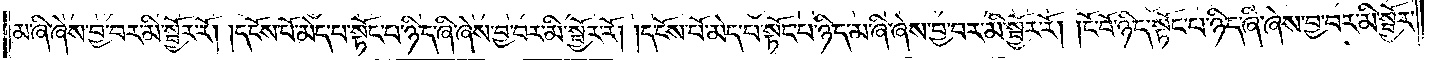མ་ཞི་ཞེས་བྱ་བར་མི་སྦྱོར་རོ། །དངོས་པོ་མེད་པ་སྟོང་པ་ཉིད་ཞི་ཞེས་བྱ་བར་མི་སྦྱོར་རོ། །དངོས་པོ་མེད་པ་སྟོང་པ་ཉིད་མ་ཞི་ཞེས་བྱ་བར་མི་སྦྱོར་རོ། །ངོ་བོ་ཉིད་སྟོང་པ་ཉིད་ཞི་ཞེས་བྱ་བར་མི་སྦྱོར་
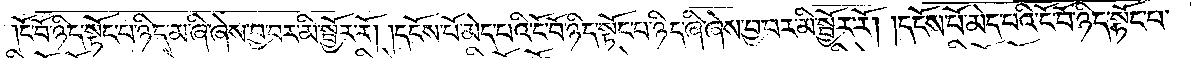ངོ་བོ་ཉིད་སྟོང་པ་ཉིད་མ་ཞི་ཞེས་བྱ་བར་མི་སྦྱོར་རོ། །དངོས་པོ་མེད་པའི་ངོ་བོ་ཉིད་སྟོང་པ་ཉིད་ཞི་ཞེས་བྱ་བར་མི་སྦྱོར་རོ། །དངོས་པོ་མེད་པའི་ངོ་བོ་ཉིད་སྟོང་པ་
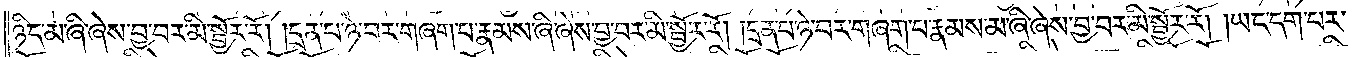ཉིད་མ་ཞི་ཞེས་བྱ་བར་མི་སྦྱོར་རོ། །དྲན་པ་ཉེ་བར་གཞག་པ་རྣམས་ཞི་ཞེས་བྱ་བར་མི་སྦྱོར་རོ། །དྲན་པ་ཉེ་བར་གཞག་པ་རྣམས་མ་ཞི་ཞེས་བྱ་བར་མི་སྦྱོར་རོ། །ཡང་དག་པར་
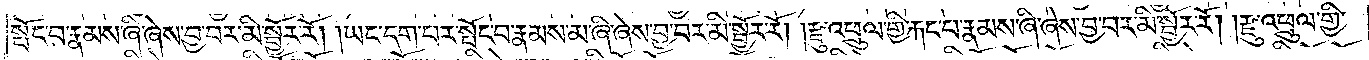སྤོང་བ་རྣམས་ཞི་ཞེས་བྱ་བར་མི་སྦྱོར་རོ། །ཡང་དག་པར་སྤོང་བ་རྣམས་མ་ཞི་ཞེས་བྱ་བར་མི་སྦྱོར་རོ། །རྫུ་འཕྲུལ་གྱི་རྐང་པ་རྣམས་ཞི་ཞེས་བྱ་བར་མི་སྦྱོར་རོ། །རྫུ་འཕྲུལ་གྱི་
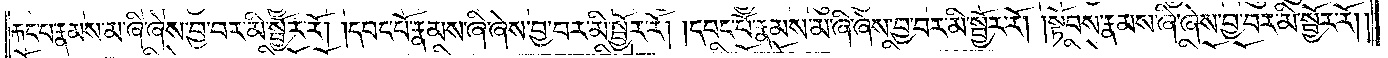རྐང་པ་རྣམས་མ་ཞི་ཞེས་བྱ་བར་མི་སྦྱོར་རོ། །དབང་པོ་རྣམས་ཞི་ཞེས་བྱ་བར་མི་སྦྱོར་རོ། །དབང་པོ་རྣམས་མ་ཞི་ཞེས་བྱ་བར་མི་སྦྱོར་རོ། །སྟོབས་རྣམས་ཞི་ཞེས་བྱ་བར་མི་སྦྱོར་རོ། །
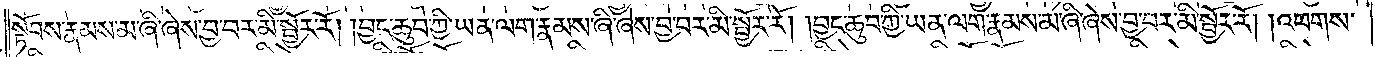སྟོབས་རྣམས་མ་ཞི་ཞེས་བྱ་བར་མི་སྦྱོར་རོ། །བྱང་ཆུབ་ཀྱི་ཡན་ལག་རྣམས་ཞི་ཞེས་བྱ་བར་མི་སྦྱོར་རོ། །བྱང་ཆུབ་ཀྱི་ཡན་ལག་རྣམས་མ་ཞི་ཞེས་བྱ་བར་མི་སྦྱོར་རོ། །འཕགས་
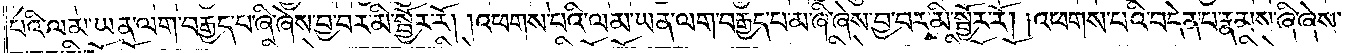པའི་ལམ་ཡན་ལག་བརྒྱད་པ་ཞི་ཞེས་བྱ་བར་མི་སྦྱོར་རོ། །འཕགས་པའི་ལམ་ཡན་ལག་བརྒྱད་པ་མ་ཞི་ཞེས་བྱ་བར་མི་སྦྱོར་རོ། །འཕགས་པའི་བདེན་པ་རྣམས་ཞི་ཞེས་
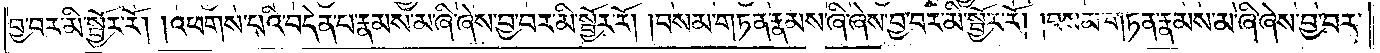བྱ་བར་མི་སྦྱོར་རོ། །འཕགས་པའི་བདེན་པ་རྣམས་མ་ཞི་ཞེས་བྱ་བར་མི་སྦྱོར་རོ། །བསམ་གཏན་རྣམས་ཞི་ཞེས་བྱ་བར་མི་སྦྱོར་རོ། །བསམ་གཏན་རྣམས་མ་ཞི་ཞེས་བྱ་བར་
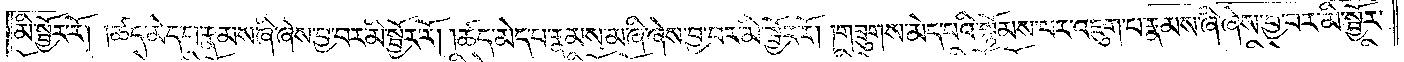མི་སྦྱོར་རོ། །ཚད་མེད་པ་རྣམས་ཞི་ཞེས་བྱ་བར་མི་སྦྱོར་རོ། །ཚད་མེད་པ་རྣམས་མ་ཞི་ཞེས་བྱ་བར་མི་སྦྱོར་རོ། །གཟུགས་མེད་པའི་སྙོམས་པར་འཇུག་པ་རྣམས་ཞི་ཞེས་བྱ་བར་མི་སྦྱོར་
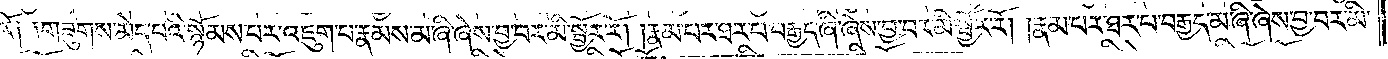རོ༑ ༑གཟུགས་མེད་པའི་སྙོམས་པར་འཇུག་པ་རྣམས་མ་ཞི་ཞེས་བྱ་བར་མི་སྦྱོར་རོ། །རྣམ་པར་ཐར་པ་བརྒྱད་ཞི་ཞེས་བྱ་བར་མི་སྦྱོར་རོ། །རྣམ་པར་ཐར་པ་བརྒྱད་མ་ཞི་ཞེས་བྱ་བར་མི་
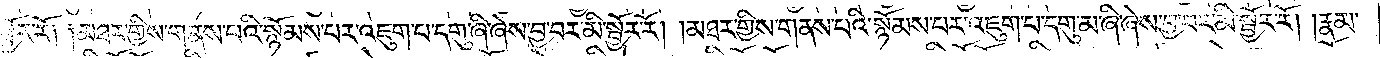སྦྱོར་རོ༑ ༑མཐར་གྱིས་གནས་པའི་སྙོམས་པར་འཇུག་པ་དགུ་ཞི་ཞེས་བྱ་བར་མི་སྦྱོར་རོ། །མཐར་གྱིས་གནས་པའི་སྙོམས་པར་འཇུག་པ་དགུ་མ་ཞི་ཞེས་བྱ་བར་མི་སྦྱོར་རོ། །རྣམ་
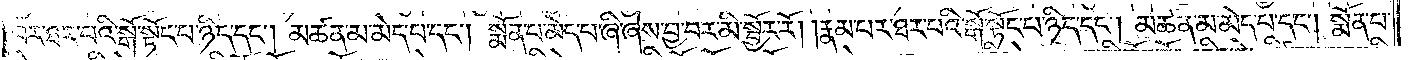པར་ཐར་པའི་སྒོ་སྟོང་པ་ཉིད་དང༌། མཚན་མ་མེད་པ་དང༌། སྨོན་པ་མེད་པ་ཞི་ཞེས་བྱ་བར་མི་སྦྱོར་རོ། །རྣམ་པར་ཐར་པའི་སྒོ་སྟོང་པ་ཉིད་དང༌། མཚན་མ་མེད་པ་དང༌། སྨོན་པ་
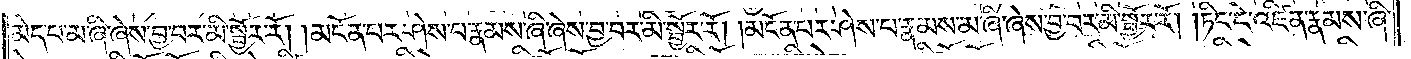མེད་པ་མ་ཞི་ཞེས་བྱ་བར་མི་སྦྱོར་རོ། །མངོན་པར་ཤེས་པ་རྣམས་ཞི་ཞེས་བྱ་བར་མི་སྦྱོར་རོ། །མངོན་པར་ཤེས་པ་རྣམས་མ་ཞི་ཞེས་བྱ་བར་མི་སྦྱོར་རོ། །ཏིང་ངེ་འཛིན་རྣམས་ཞི་
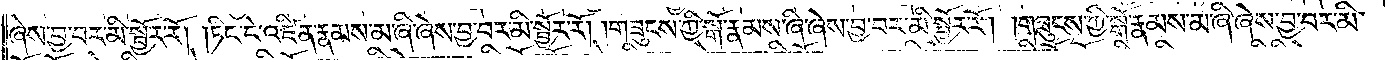ཞེས་བྱ་བར་མི་སྦྱོར་རོ། །ཏིང་ངེ་འཛིན་རྣམས་མ་ཞི་ཞེས་བྱ་བར་མི་སྦྱོར་རོ། །གཟུངས་ཀྱི་སྒོ་རྣམས་ཞི་ཞེས་བྱ་བར་མི་སྦྱོར་རོ། །གཟུངས་ཀྱི་སྒོ་རྣམས་མ་ཞི་ཞེས་བྱ་བར་མི་
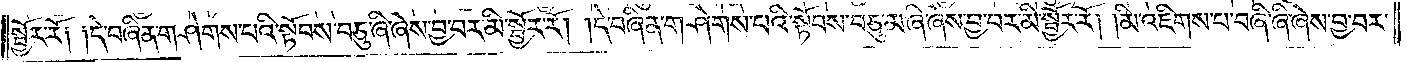སྦྱོར་རོ༑ ༑དེ་བཞིན་གཤེགས་པའི་སྟོབས་བཅུ་ཞི་ཞེས་བྱ་བར་མི་སྦྱོར་རོ། །དེ་བཞིན་གཤེགས་པའི་སྟོབས་བཅུ་མ་ཞི་ཞེས་བྱ་བར་མི་སྦྱོར་རོ། །མི་འཇིགས་པ་བཞི་ཞི་ཞེས་བྱ་བར་
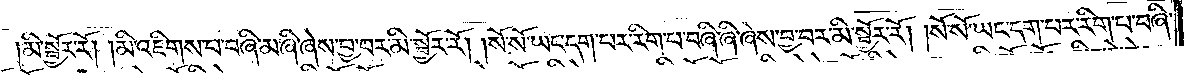མི་སྦྱོར་རོ། །མི་འཇིགས་པ་བཞི་མ་ཞི་ཞེས་བྱ་བར་མི་སྦྱོར་རོ། །སོ་སོ་ཡང་དག་པར་རིག་པ་བཞི་ཞི་ཞེས་བྱ་བར་མི་སྦྱོར་རོ། །སོ་སོ་ཡང་དག་པར་རིག་པ་བཞི་
